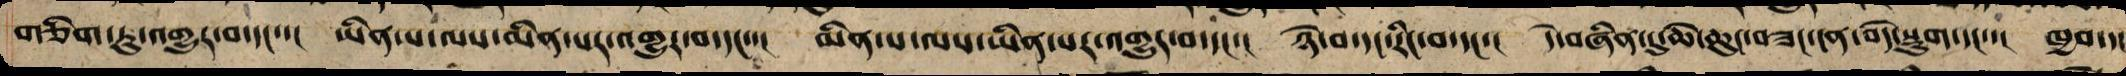གཅིག་ཏུ་འགྱུར་བ་དང་་། ཡིན་པ་ལས་མིན་པར་འགྱུར་བ་དང་་། མིན་པ་ལས་ཡིན་པར་འགྱུར་བ་དང་། ཉེ་བ་དང་རིང་བ་དང་། དེ་བཞིན་དུ་ཆེ་ཆུང་བཟང་ངན་བདེ་སྡུག་དང་་། ཁྱབ་དང
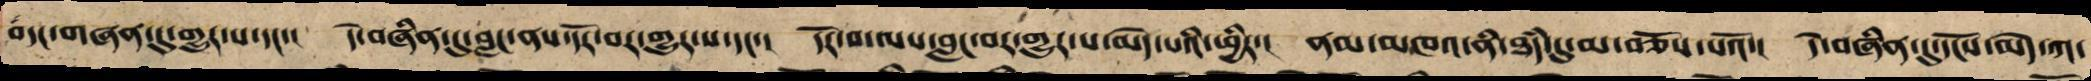བདང་གཞན་དུ་གྱུར་པ་དང་། དེ་བཞིན་དུ་བླངས་ནས་དོར་བར་གྱུར་པ་དང་། དོར་བ་ལས་བླང་བར་གྱུར་པ་མེད་པའི་ཕྱིར་། ནམ་མཁའ་ནི་ཐཾད་དུ་མ་བཅོས་པའོ་། །དེ་བཞིན་དུ་དངོས་མེད་ཀ་
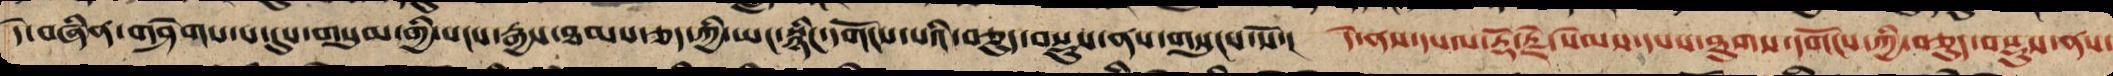དེ་བཞིན་གཤེགས་པ་དུས་གསུམ་གྱི་སངས་རྒྱས་ཐམས་ཅད་ཀྱི་ཡང་སྙིང་དགོངས་པའི་བཅུད་བསྡུས་ནས་གསུངས་སོ་། དེ་ནས་དཔལ་རྡོ་རྗེ་སེམས་དཔས་ཐུགས་དགོངས་ཀྱི་བཅུད་བསྡུས་ནས་
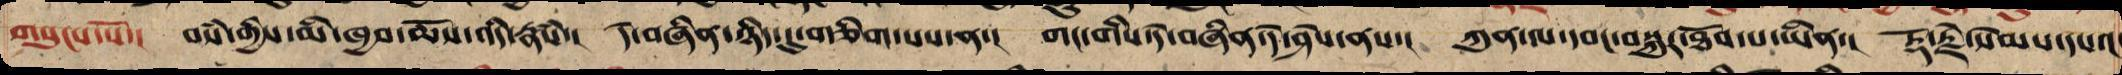གསུངས་སོ་། བསཾ་གྱིས་མི་ཁྱབ་ཆོས་འདི་རྣཾས་། དེ་བཞིན་ཉིད་དུ་གཅིག་པས་ན་། གང་གིས་དེ་བཞིན་དེ་ཤེས་ན་། ཀུན་ལ་དབང་བསྐུར་ཐོབ་པ་ཡིན་། རྡོ་རྗེ་སེམས་དཔའ
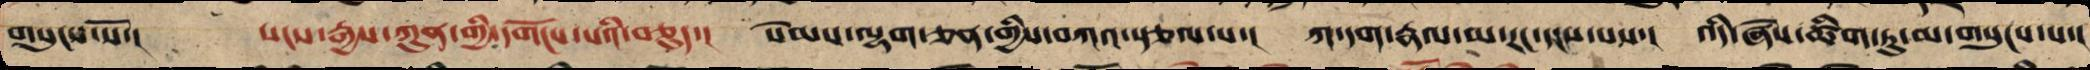གསུངས་སོ་། སངས་རྒྱས་ཀུན་གྱི་དགོངས་པའི་བཅུད་། སེམས་ལྷག་ཅན་གྱིས་བཀའ་སྩལ་པ་། ཀ་དག་རྣལ་མ་རང་དངས་པས་། འདི་ཞེས་ཚིག་ཏུ་མ་གསུངས་པ་།
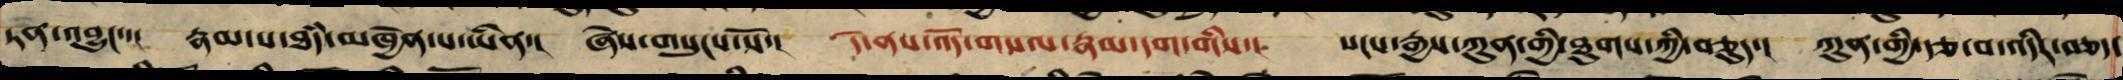ཏན་འབྱུང་་། རྣམ་པ་ཐཾད་མཁྱེན་པ་ཡིན་། ཞེས་གསུངས་སོ་། དེ་ནས་འོད་གསལ་རྣམ་དག་གིས་། སངས་རྒྱས་ཀུན་གྱི་ཐུགས་ཀྱི་བཅུད་། ཀུན་གྱི་རྩ་བ་འདིར་བཅད་
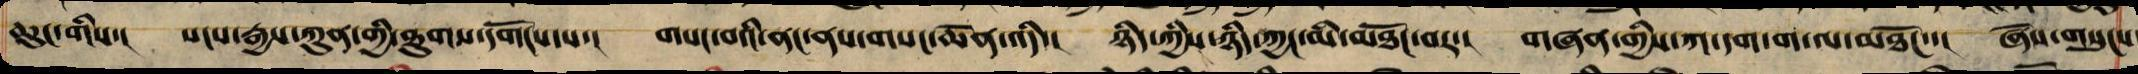ཆུང་གིས་། སངས་རྒྱས་ཀུན་གྱི་ཐུགས་དགོངས་པ་། གསང་བའི་ནང་ནས་གསང་ཆེན་འདི་། ཉིད་ཀྱིས་ཉིད་ཀྱང་མི་མཐོང་བར་། གཞན་གྱིས་ཀ་དག་ག་ལ་མཐོང་་། ཞེས་གསུངས་
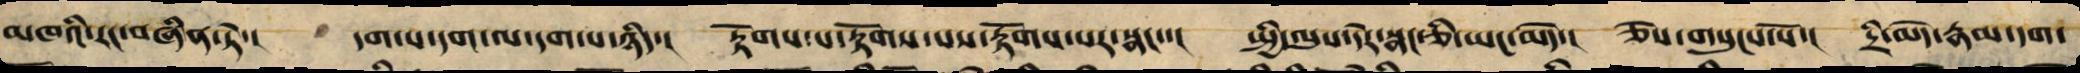མཁའི་རང་བཞིན་ཏེ་། དག་པ་དག་ལ་དག་པ་ཉིད་། རྟོགས་པ་རྟོགས་པས་རྟོགས་པར་སྣང་་། སྤྱི་ལུས་དེར་སྣང་ཅི་ཡང་མེད་། ཅེས་གསུངས་སོ་། དྲི་མེད་རྣམ་དག་
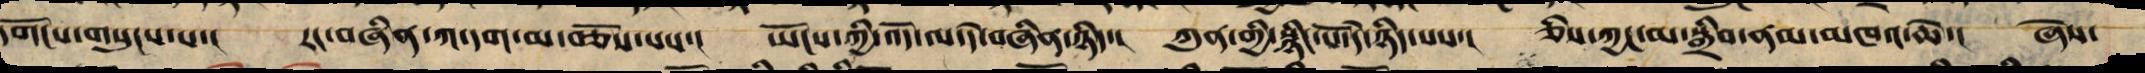དགོངས་གསུངས་པ་། རང་བཞིན་ཀ་དག་མ་བཅོས་པས་། ཡོངས་ཀྱི་འོད་ལ་དེ་བཞིན་ཉིད་། ཀུན་གྱི་སྙིང་པོ་དེ་ཉིད་པས་། ཅིས་ཀྱང་མ་སྒྲིབ་ནམ་མཁའ་ཆེ་། ཞེས་
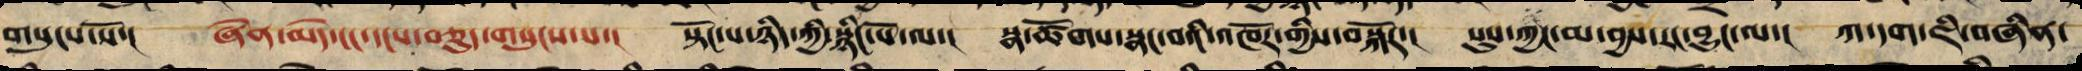གསུངས་སོ་། ཞེན་མེད་ངང་དངས་བཅུད་གསུངས་པ་། སྟོང་པ་ཉིད་ཀྱི་སྙིང་པོ་ལ་། སྣ་ཚོགས་སྣང་བའི་འཁོར་གྱིས་བསྐོར་། སུས་ཀྱང་མ་བྱས་རང་བྱུང་ལ་། ཀ་དག་ཇི་བཞིན་
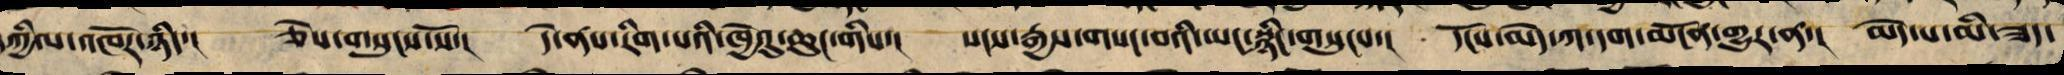དཀྱིལ་འཁོར་ཉིད་། ཅེས་གསུངས་སོ་། དེ་ནས་རིག་པའི་ཁྱེའུ་ཆུང་གིས་། སངས་རྒྱས་གསང་བའི་ཡང་སྙིང་གསུངས་། དངོས་མེད་ཀ་དག་མངོན་གྱུར་ན་། མེད་པ་མི་ཟད་
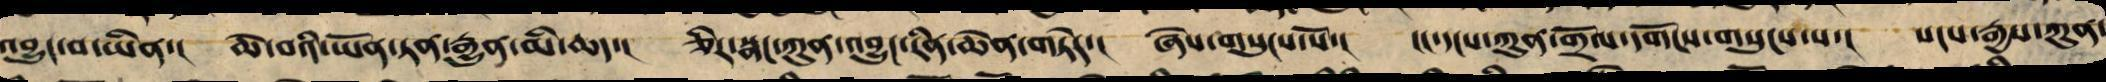འབྱུང་བ་ཡིན་། ཆེ་བའི་ཡོན་ཏན་རྒྱུན་མི་ཆད་། ཅིར་སྣང་ཀུན་འབྱུང་རིན་ཆེན་གཏེར་། ཞེས་གསུངས་སོ་། ངང་དངས་ཀུན་གྲོལ་དགོངས་གསུངས་པ་། སངས་རྒྱས་ཀུན་
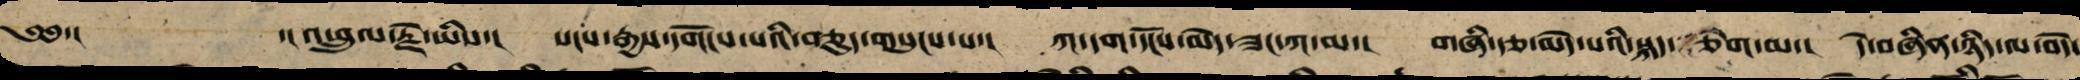༄༅་། ་།འཕྲུལ་རྗེ་ཡིས་། སངས་རྒྱས་དགོངས་པའི་བཅུད་གསུངས་པ་། ཀ་དག་དངོས་མེད་ཟང་ཀ་མ་། གཞི་རྩ་མེད་པའི་སྐད་ཅིག་མ་། དེ་ཉིད་ཉིད་ལ་བདེ་
